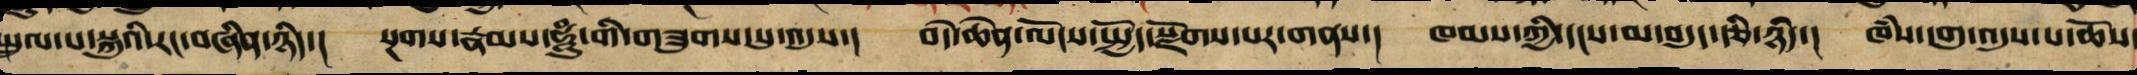སྤྲུལ་པ་སྐུའི་རང་བཞིན་ཉིད་། སྔགས་རྣམས་ཧཱུཾ་གི་གཟུགས་སུ་འདུས་། བདེ་ཆེན་ལོངས་སྤྱོད་སྫོགས་པར་གནས་། ཁམས་ཀྱི་དྭངས་མ་བདུད་རྩི་ཉིད་། ཁཾས་དགུ་འདུས་པ་ཆོས་
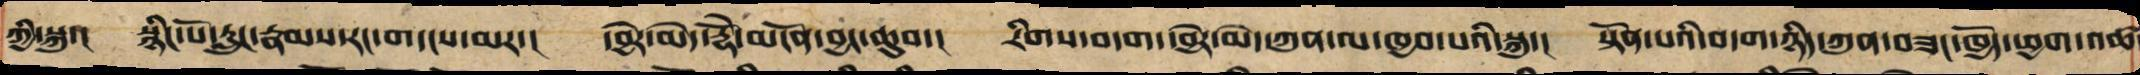ཀྱི་སྐུ་། སྙིང་པོ་རླུང་རྣམས་རང་གདངས་མར་། དབྱེར་མེད་རྡོཻ་མངོན་བྱང་ཆུབ་། རིགས་བདག་དབྱེར་མེད་ཀུན་ལ་ཁྱབ་པའི་སྐུ་། སྟོན་པའི་བདག་ཉིད་ཀུན་བཟང་ཁྱོད་ཕྱག་འཚ
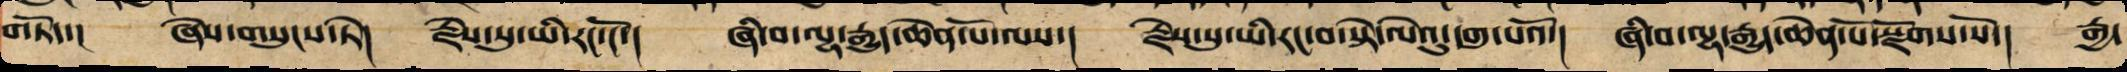གཏོད་། ཅེས་གསུངས་ཏེ། རྗེས་སུ་ཡི་རང་ངོ་། ཞི་བ་ལྷ་རྒྱུད་ཆེན་པོ་ལས་། རྗེས་སུ་ཡི་རང་བ་སྟེ་ལེའུ་དགུ་པའོ་།། ཞི་བ་ལྷ་རྒྱུད་ཆེན་པོ་སྫོགས་སོ་། རྒྱ་
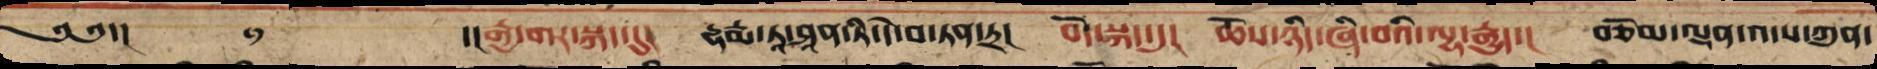༄༅་།    ་།རྒྱ་གར་སྐད་དུ། དྷརྨ་ཏཱ་ཤཱན་དེ་བ་ཏན་ཏྲ། བོད་སྐད་དུ། ཆོས་ཉིད་ཞི་བའི་ལྷ་རྒྱུད་། བཅོམ་ལྡན་འདས་ཀུན་
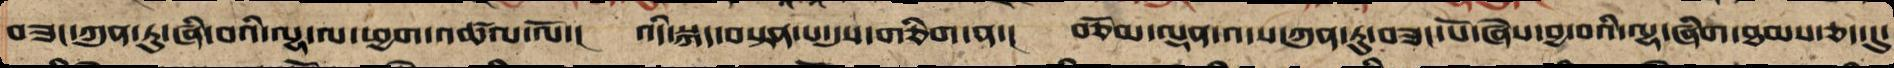བཟང་ཀུན་ཏུ་ཞི་བའི་ལྷ་ལ་ཕྱག་འཚལ་ལོ་། འདི་སྐད་བསྟན་པའི་དུས་གཅིག་ན་། བཅོམ་ལྡན་འདས་ཀུན་ཏུ་བཟང་པོ་ཞེས་བྱ་བའི་ལྷ་ཞིག་ཐམས་ཅད་དུ་
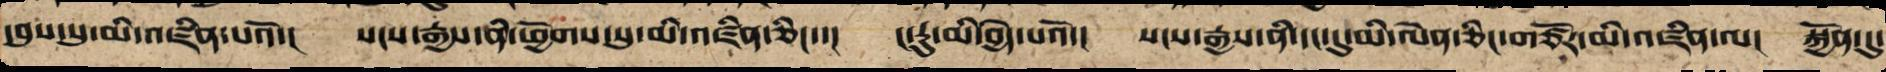དབུས་སུ་མི་འཛིན་པའོ་། སངས་རྒྱས་ནི་ཕྱོགས་སུ་མི་འཛིན་ཅིང་་། ང་རུ་མི་བྱེད་པའོ་། སངས་རྒྱས་ནི་དང་དུ་མི་ལེན་ཅིང་གཙོར་མི་འཛིན་ལ། སྐྱོན་དུ་
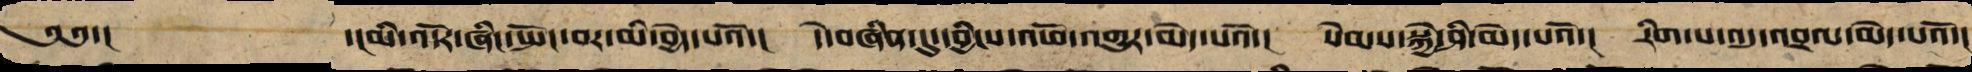༄༅་། ་།མི་འདོར་ཞིང་སྤང་བར་མི་བྱེད་པའོ་། དེ་བཞིན་དུ་དབྱིངས་འཕོ་འགྱུར་མེད་པའོ་། སེམས་སྐྱེ་ཤི་མེད་པའོ་། རིག་པ་འདུ་འབྲལ་མེད་པའོ་།
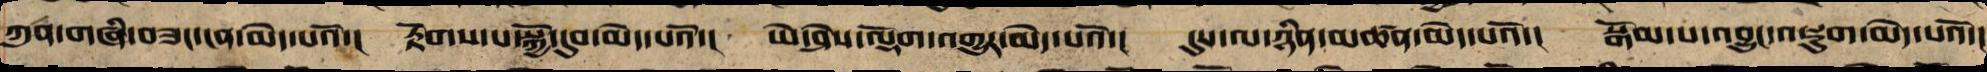ཀུན་གཞི་བཟང་ངན་མེད་པའོ་། རྟོག་པ་སྐྱོ་དུབ་མེད་པའོ་། ཡེ་ཤེས་ལྡོག་འགྱུར་མེད་པའོ་། དུས་ལ་ཉིན་མཚན་མེད་པའོ་། སྒོམ་པ་འབྱུང་འཇུག་མེད་པའོ་།
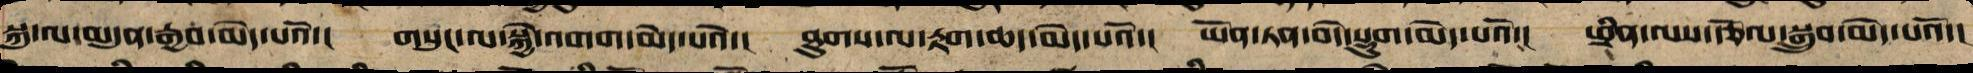སྐུ་ལ་མདུན་རྒྱབ་མེད་པའོ་། གསུང་ལ་སྐྱེ་འགག་མེད་པའོ་། ཐུགས་ལ་རྟག་ཆད་མེད་པའོ་། ཡོན་ཏན་བདེ་སྡུག་མེད་པའོ་། ཕྲིན་ལས་རྩོལ་བསྒྲུབ་མེད་པའོ་།
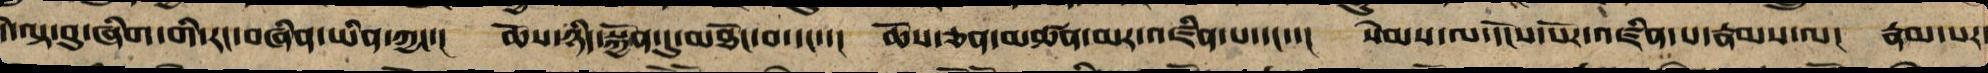དེ་ལྟ་བུ་ཞིག་གི་རང་བཞིན་ཡིན་ཀྱང་། ཆོས་ཉིད་སྐྱོན་དུ་མཐོང་བ་དང་། ཆོས་ཅན་མཚན་མར་འཛིན་པ་དང་། སེམས་ལ་དངོས་པོར་འཛིན་པ་རྣམས་ལ། རྣམ་པར་
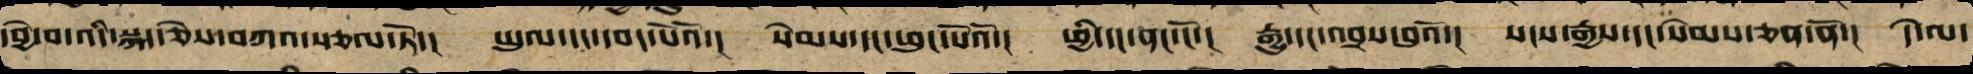དབྱེ་བ་འདི་སྐད་ཅེས་བཀའ་སྩལ་ཏོ་། ཡུལ་དང་དབང་པོའོ།་ སེམས་དང་ཕུང་པོའོ་། ཕྱི་དང་ནང་ངོ་། རྒྱུ་དང་འབྲས་བུའོ་། སངས་རྒྱས་དང་སེམས་ཅན་ནོ་། དེ་ལ་
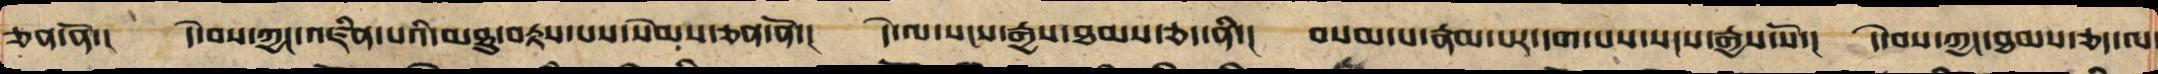ཅན་ནོ་། དེ་བས་ཀྱང་འཛིན་པའི་མཐུ་བརྟས་པས་སེམས་ཅན་ནོ་། དེ་ལ་སངས་རྒྱས་ཐམས་ཅད་ནི་། བསམ་པ་རྣམ་པར་དག་པས་སངས་རྒྱས་སོ་། དེ་བས་ཀྱང་ཐམས་ཅད་ལ
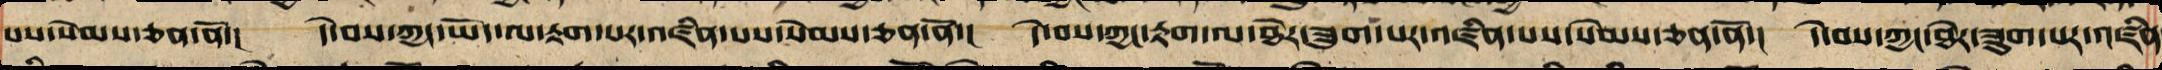པས་སེམས་ཅན་ནོ་། དེ་བས་ཀྱང་ཡོད་ལ་རྟག་པར་འཛིན་པས་སེམས་ཅན་ནོ་། དེ་བས་ཀྱང་རྟག་ལ་ཐེར་ཟུག་པར་འཛིན་པས་སེམས་ཅན་ནོ་། དེ་བས་ཀྱང་ཐེར་ཟུག་པར་འཛིན
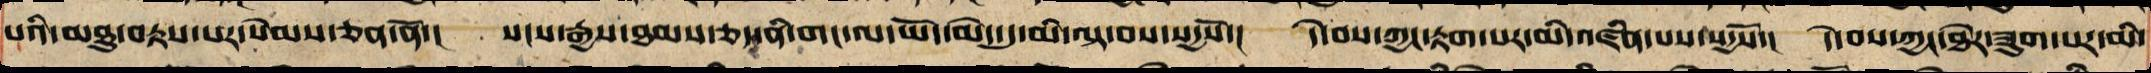པའི་མཐུ་བརྟས་པས་སེམས་ཅན་ནོ་། སངས་རྒྱས་ཐམས་ཅད་ནི་གང་ལ་ཡོད་མེད་དུ་མི་བལྟ་བས་སདྱསོ་། དེ་བས་ཀྱང་རྟག་པར་མི་འཛིན་པས་སདྱསོ་། དེ་བས་ཀྱང་ཐེར་ཟུག་པར་མི་
